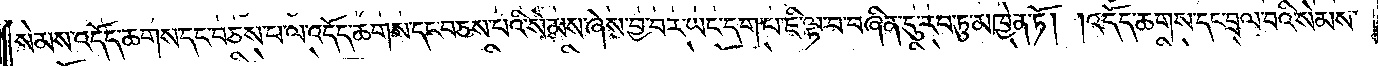སེམས་འདོད་ཆགས་དང་བཅས་པ་ལ་འདོད་ཆགས་དང་བཅས་པའི་སེམས་ཞེས་བྱ་བར་ཡང་དག་པ་ཇི་ལྟ་བ་བཞིན་དུ་རབ་ཏུ་མཁྱེན་ཏོ། །འདོད་ཆགས་དང་བྲལ་བའི་སེམས་
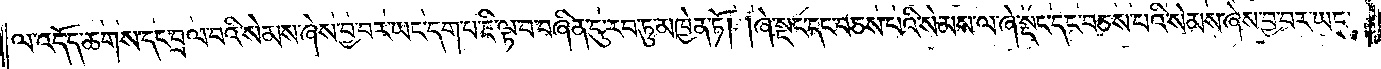ལ་འདོད་ཆགས་དང་བྲལ་བའི་སེམས་ཞེས་བྱ་བར་ཡང་དག་པ་ཇི་ལྟ་བ་བཞིན་དུ་རབ་ཏུ་མཁྱེན་ཏོ། །ཞེ་སྡང་དང་བཅས་པའི་སེམས་ལ་ཞེ་སྡང་དང་བཅས་པའི་སེམས་ཞེས་བྱ་བར་ཡང་
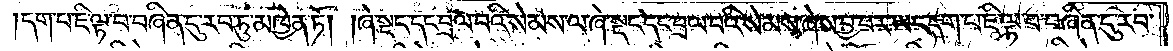དག་པ་ཇི་ལྟ་བ་བཞིན་དུ་རབ་ཏུ་མཁྱེན་ཏོ། །ཞེ་སྡང་དང་བྲལ་བའི་སེམས་ལ་ཞེ་སྡང་དང་བྲལ་བའི་སེམས་ཞེས་བྱ་བར་ཡང་དག་པ་ཇི་ལྟ་བ་བཞིན་དུ་རབ་
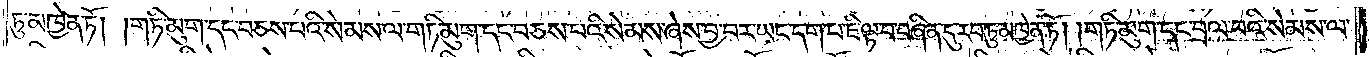ཏུ་མཁྱེན་ཏོ། །གཏི་མུག་དང་བཅས་པའི་སེམས་ལ་གཏི་མུག་དང་བཅས་པའི་སེམས་ཞེས་བྱ་བར་ཡང་དག་པ་ཇི་ལྟ་བ་བཞིན་དུ་རབ་ཏུ་མཁྱེན་ཏོ། །གཏི་མུག་དང་བྲལ་བའི་སེམས་ལ་
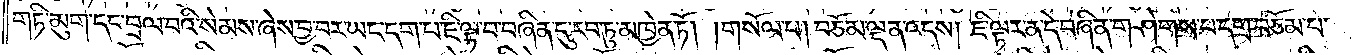གཏི་མུག་དང་བྲལ་བའི་སེམས་ཞེས་བྱ་བར་ཡང་དག་པ་ཇི་ལྟ་བ་བཞིན་དུ་རབ་ཏུ་མཁྱེན་ཏོ། །གསོལ་པ། བཅོམ་ལྡན་འདས། ཇི་ལྟར་ན་དེ་བཞིན་གཤེགས་པ་དགྲ་བཅོམ་པ་
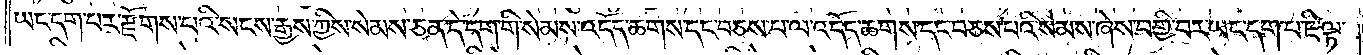ཡང་དག་པར་རྫོགས་པའི་སངས་རྒྱས་ཀྱིས་སེམས་ཅན་དེ་དག་གི་སེམས་འདོད་ཆགས་དང་བཅས་པ་ལ་འདོད་ཆགས་དང་བཅས་པའི་སེམས་ཞེས་བགྱི་བར་ཡང་དག་པ་ཇི་ལྟ་
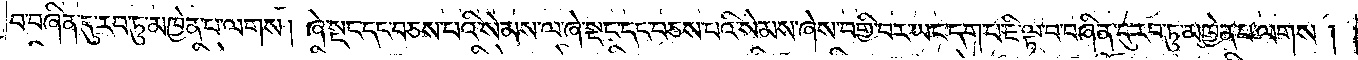བ་བཞིན་དུ་རབ་ཏུ་མཁྱེན་པ་ལགས། ཞེ་སྡང་དང་བཅས་པའི་སེམས་ལ་ཞེ་སྡང་དང་བཅས་པའི་སེམས་ཞེས་བགྱི་བར་ཡང་དག་པ་ཇི་ལྟ་བ་བཞིན་དུ་རབ་ཏུ་མཁྱེན་པ་ལགས།
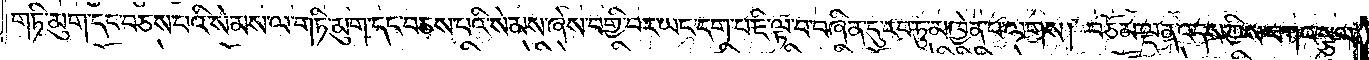གཏི་མུག་དང་བཅས་པའི་སེམས་ལ་གཏི་མུག་དང་བཅས་པའི་སེམས་ཞེས་བགྱི་བར་ཡང་དག་པ་ཇི་ལྟ་བ་བཞིན་དུ་རབ་ཏུ་མཁྱེན་པ་ལགས། བཅོམ་ལྡན་འདས་ཀྱིས་བཀའ་སྩལ་
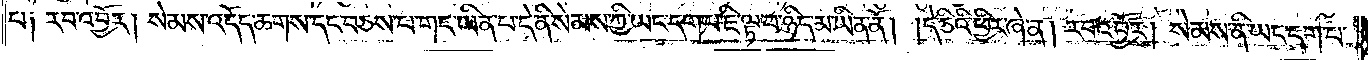པ༑ རབ་འབྱོར། སེམས་འདོད་ཆགས་དང་བཅས་པ་གང་ཡིན་པ་དེ་ནི་སེམས་ཀྱི་ཡང་དག་པ་ཇི་ལྟ་བ་ཉིད་མ་ཡིན་ནོ། །དེ་ཅིའི་ཕྱིར་ཞེ་ན། རབ་འབྱོར། སེམས་ནི་ཡང་དག་པ་
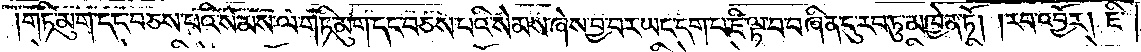གཏི་མུག་དང་བཅས་པའི་སེམས་ལ་གཏི་མུག་དང་བཅས་པའི་སེམས་ཞེས་བྱ་བར་ཡང་དག་པ་ཇི་ལྟ་བ་བཞིན་དུ་རབ་ཏུ་མཁྱེན་ཏོ། །རབ་འབྱོར། ཇི་
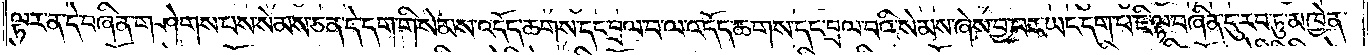ལྟར་ན་དེ་བཞིན་གཤེགས་པས་སེམས་ཅན་དེ་དག་གི་སེམས་འདོད་ཆགས་དང་བྲལ་བ་ལ་འདོད་ཆགས་དང་བྲལ་བའི་སེམས་ཞེས་བྱ་བར་ཡང་དག་པ་ཇི་ལྟ་བ་བཞིན་དུ་རབ་ཏུ་མཁྱེན་
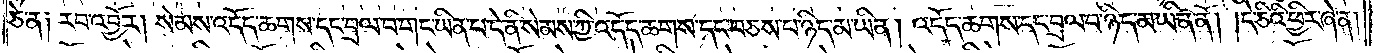ཅེ་ན༑ རབ་འབྱོར། སེམས་འདོད་ཆགས་དང་བྲལ་བ་གང་ཡིན་པ་དེ་ནི་སེམས་ཀྱི་འདོད་ཆགས་དང་བཅས་པ་ཉིད་མ་ཡིན། འདོད་ཆགས་དང་བྲལ་བ་ཉིད་མ་ཡིན་ནོ། །དེ་ཅིའི་ཕྱིར་ཞེ་ན།
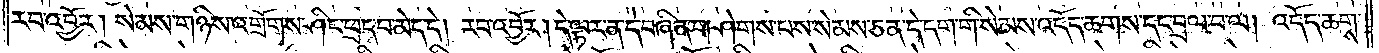རབ་འབྱོར། སེམས་གཉིས་འགྲོགས་ཤིང་ཕྲད་པ་མེད་དེ། རབ་འབྱོར། དེ་ལྟར་ན་དེ་བཞིན་གཤེགས་པས་སེམས་ཅན་དེ་དག་གི་སེམས་འདོད་ཆགས་དང་བྲལ་བ་ལ། འདོད་ཆགས་
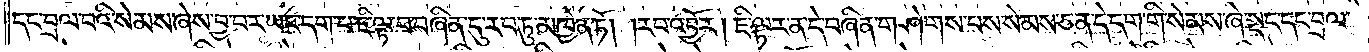དང་བྲལ་བའི་སེམས་ཞེས་བྱ་བར་ཡང་དག་པ་ཇི་ལྟ་བ་བཞིན་དུ་རབ་ཏུ་མཁྱེན་ཏོ། །རབ་འབྱོར། ཇི་ལྟར་ན་དེ་བཞིན་གཤེགས་པས་སེམས་ཅན་དེ་དག་གི་སེམས་ཞེ་སྡང་དང་བྲལ་
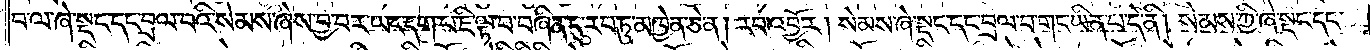བ་ལ་ཞེ་སྡང་དང་བྲལ་བའི་སེམས་ཞེས་བྱ་བར་ཡང་དག་པ་ཇི་ལྟ་བ་བཞིན་དུ་རབ་ཏུ་མཁྱེན་ཅེ་ན། རབ་འབྱོར། སེམས་ཞེ་སྡང་དང་བྲལ་བ་གང་ཡིན་པ་དེ་ནི། སེམས་ཀྱི་ཞེ་སྡང་དང་
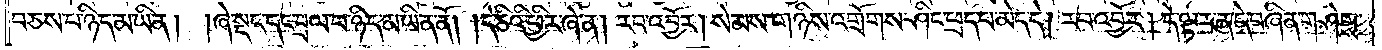བཅས་པ་ཉིད་མ་ཡིན། ཞེ་སྡང་དང་བྲལ་བ་ཉིད་མ་ཡིན་ནོ། །དེ་ཅིའི་ཕྱིར་ཞེ་ན། རབ་འབྱོར། སེམས་གཉིས་འགྲོགས་ཤིང་ཕྲད་པ་མེད་དེ། རབ་འབྱོར། དེ་ལྟར་ན་དེ་བཞིན་གཤེགས་
